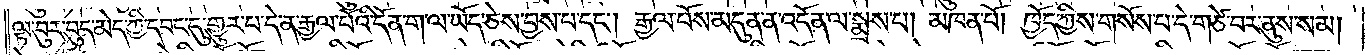ལྟ་བུར་བུད་མེད་ཀྱི་དབང་དུ་གྱུར་པ་དེ་ན་རྒྱལ་པོའི་དོན་ག་ལ་ཡོད་ཅེས་བྱས་པ་དང༌། རྒྱལ་པོས་མདུན་ན་འདོན་ལ་སྨྲས་པ། མཁན་པོ། ཁྱོད་ཀྱིས་གསོས་པ་དེ་གཙེ་བར་ནུས་སམ།
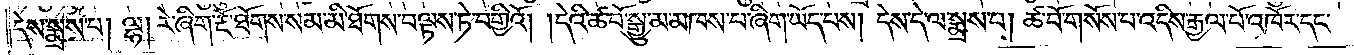དེས་སྨྲས་པ། ལྷ། རེ་ཞིག་རྔོ་ཐོགས་མ་མི་ཐོགས་བལྟས་ཏེ་བགྱིའོ། །དེའི་ཚ་བོ་སྒྱུ་མ་མཁས་པ་ཞིག་ཡོད་པས། དེས་དེ་ལ་སྨྲས་པ། ཚ་བོ་གསོས་པ་འདིས་རྒྱལ་པོ་འཁོར་དང་
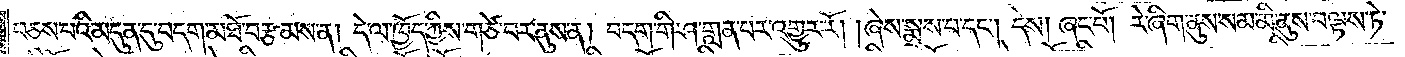བཅས་པའི་མདུན་དུ་བདག་མཐོ་བརྩམས་ན། དེ་ལ་ཁྱོད་ཀྱིས་གཙེ་བར་ནུས་ན། བདག་གི་ཤ་གླན་པར་འགྱུར་རོ། །ཞེས་སྨྲས་པ་དང༌། དེས། ཞང་པོ། རེ་ཞིག་ནུས་སམ་མི་ནུས་བལྟས་ཏེ་
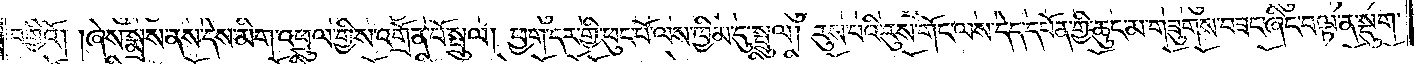བགྱིའོ། །ཞེས་སྨྲས་ནས་དེས་མིག་འཕྲུལ་གྱིས་འགྲོན་པོ་སྤྲུལ། ཕྱག་དར་གྱི་ཕུང་པོ་ལས་ཁྱིམ་དུ་སྤྲུལ། རུས་པའི་རུས་གོང་ལས་དེད་དཔོན་གྱི་ཆུང་མ་གཟུགས་བཟང་ཞིང་བལྟ་ན་སྡུག་
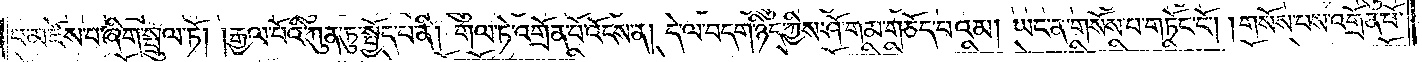པ་མཛེས་པ་ཞིག་སྤྲུལ་ཏོ། །རྒྱལ་པོའི་ཀུན་ཏུ་སྤྱོད་པ་ནི། གལ་ཏེ་འགྲོན་པོ་འོངས་ན། དེ་ལ་བདག་ཉིད་ཀྱིས་ཤོ་གམ་གཅོད་པའམ། ཡང་ན་གསོས་པ་གཏོང་ངོ༌། །གསོས་པས་འགྲོན་པོ་
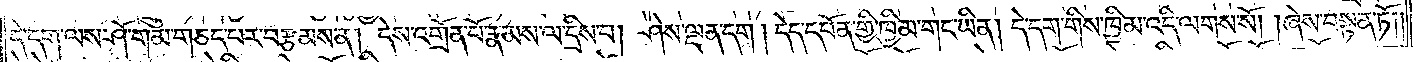དེ་དག་ལས་ཤོ་གམ་གཅད་པར་བརྩམས་ན། དེས་འགྲོན་པོ་རྣམས་ལ་དྲིས་པ། ཤེས་ལྡན་དག། དེད་དཔོན་གྱི་ཁྱིམ་གང་ཡིན། དེ་དག་གིས་ཁྱིམ་འདི་ལགས་སོ། །ཞེས་བསྟན་ཏོ༎
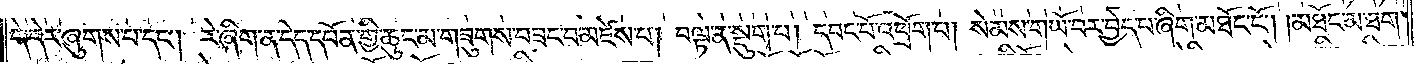དེ་དེར་ཞུགས་པ་དང༌། རེ་ཞིག་ན་དེད་དཔོན་གྱི་ཆུང་མ་གཟུགས་བཟང་བ་མཛེས་པ། བལྟ་ན་སྡུག་པ། དབང་པོ་འཕྲོག་པ། སེམས་གཡོ་བར་བྱེད་པ་ཞིག་མཐོང་ངོ༌། །མཐོང་མ་ཐག་
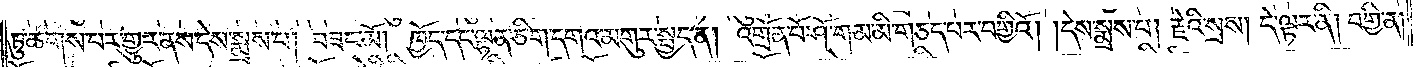ཏུ་ཆགས་པར་གྱུར་ནས་དེས་སྨྲས་པ། བཟང་མོ། ཁྱོད་དང་ལྷན་ཅིག་དགའ་མགུར་སྤྱད་ན། འགྲོན་པོ་ཤོ་གམ་མི་གཅད་པར་བགྱིའོ། །དེས་སྨྲས་པ། རྗེའི་སྲས། དེ་ལྟར་ནི། བགྱི་ན།
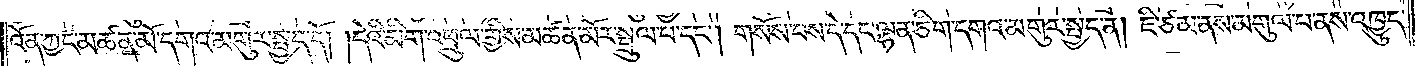འོན་ཀྱང་མཚན་མོ་དགའ་མགུར་སྤྱད་དོ། །དེའི་མིག་འཕྲུལ་གྱིས་མཚན་མོར་སྤྲུལ་པ་དང༌། གསོས་པས་དེ་དང་ལྷན་ཅིག་དགའ་མགུར་སྤྱད་ན། ཇི་ཙམ་ནས་མགུལ་པ་ནས་འཁྱུད་
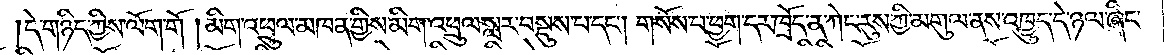དེ་གཉིད་ཀྱིས་ལོག་གོ །མིག་འཕྲུལ་མཁན་གྱིས་མིག་འཕྲུལ་སླར་བསྡུས་པ་དང༌། གསོས་པ་ཕྱག་དར་ཁྲོད་ན་ཀེང་རུས་ཀྱི་མགུལ་ནས་འཁྱུད་དེ་ཉལ་ཞིང་
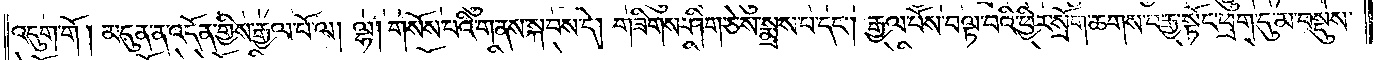འདུག་གོ །མདུན་ན་འདོན་གྱིས་རྒྱལ་པོ་ལ། ལྷ། གསོས་པའི་གནས་སྐབས་དེ། གཟིགས་ཤིག་ཅེས་སྨྲས་པ་དང༌། རྒྱལ་པོས་བལྟ་བའི་ཕྱིར་སྲོག་ཆགས་བརྒྱ་སྟོང་ཕྲག་དུ་མ་བསྡུས་
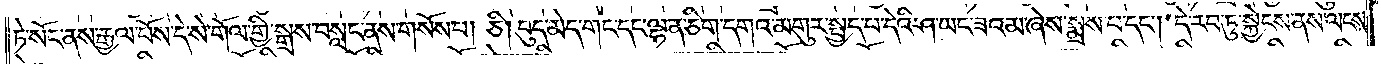ཏེ་སོང་ནས་རྒྱལ་པོས་དེ་སེ་གོལ་གྱི་སྒྲས་བསླང་ནས་གསོས་པ། ཅི། བུད་མེད་གང་དང་ལྷན་ཅིག་དགའ་མགུར་སྤྱད་པ་དེའི་ཤ་ཡང་ཟའམ་ཞེས་སྨྲས་པ་དང༌། དེ་རབ་ཏུ་སྐྱེངས་ནས་ལངས་
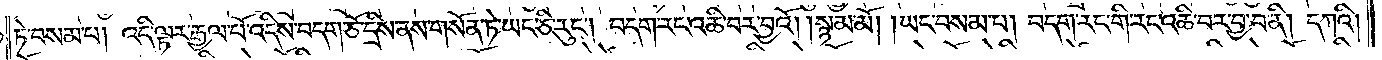ཏེ་བསམ་པ། འདི་ལྟར་རྒྱལ་པོ་འདིས་བདག་ཅོ་དྲིས་ནས་གསོན་ཏེ་ཡང་ཅི་རུང༌། བདག་རང་འཆི་བར་བྱའོ། །སྙམ་མོ། །ཡང་བསམ་པ། བདག་རང་གི་རང་འཆི་བར་བྱ་བ་ནི། དཀའི།
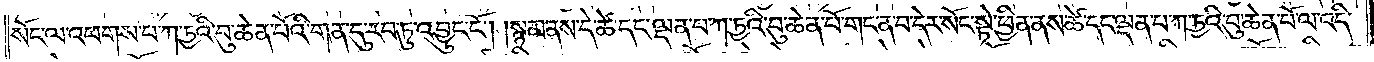སོང་ལ་འཕགས་པ་ཀ་ཏྱའི་བུ་ཆེན་པོའི་གན་དུ་རབ་ཏུ་འབྱུང་ངོ༌། །སྙམ་ནས་དེ་ཚེ་དང་ལྡན་པ་ཀ་ཏྱའི་བུ་ཆེན་པོ་གང་ན་བ་དེར་སོང་སྟེ་ཕྱིན་ནས་ཚེ་དང་ལྡན་པ་ཀ་ཏྱའི་བུ་ཆེན་པོ་ལ་འདི་
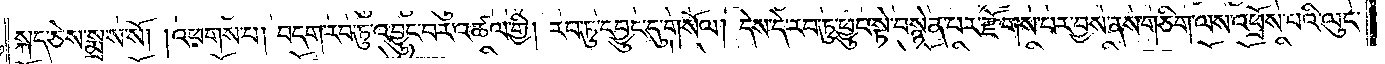སྐད་ཅེས་སྨྲས་སོ། །འཕགས་པ། བདག་རབ་ཏུ་འབྱུང་བར་འཚལ་གྱི། རབ་ཏུ་དབྱུང་དུ་གསོལ། དེས་དེ་རབ་ཏུ་ཕྱུང་སྟེ་བསྙེན་པར་རྫོགས་པར་བྱས་ནས་གཅིག་ལས་འཕྲོས་པའི་ལུང་
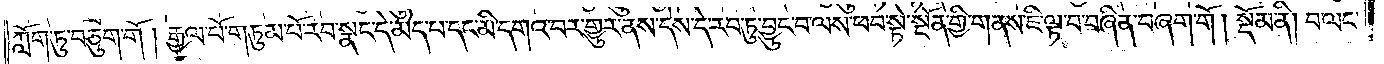ཀློག་ཏུ་བཅུག་གོ། རྒྱལ་པོ་གཏུམ་པོ་རབ་སྣང་དེ་མེད་པ་དང་མི་དགའ་བར་གྱུར་ནས་དེས་དེ་རབ་ཏུ་བྱུང་བ་ལས་ཕབ་སྟེ་སྔོན་གྱི་གནས་ཇི་ལྟ་བ་བཞིན་བཞག་གོ    །སྡོམ་ནི། བ་ལང་
